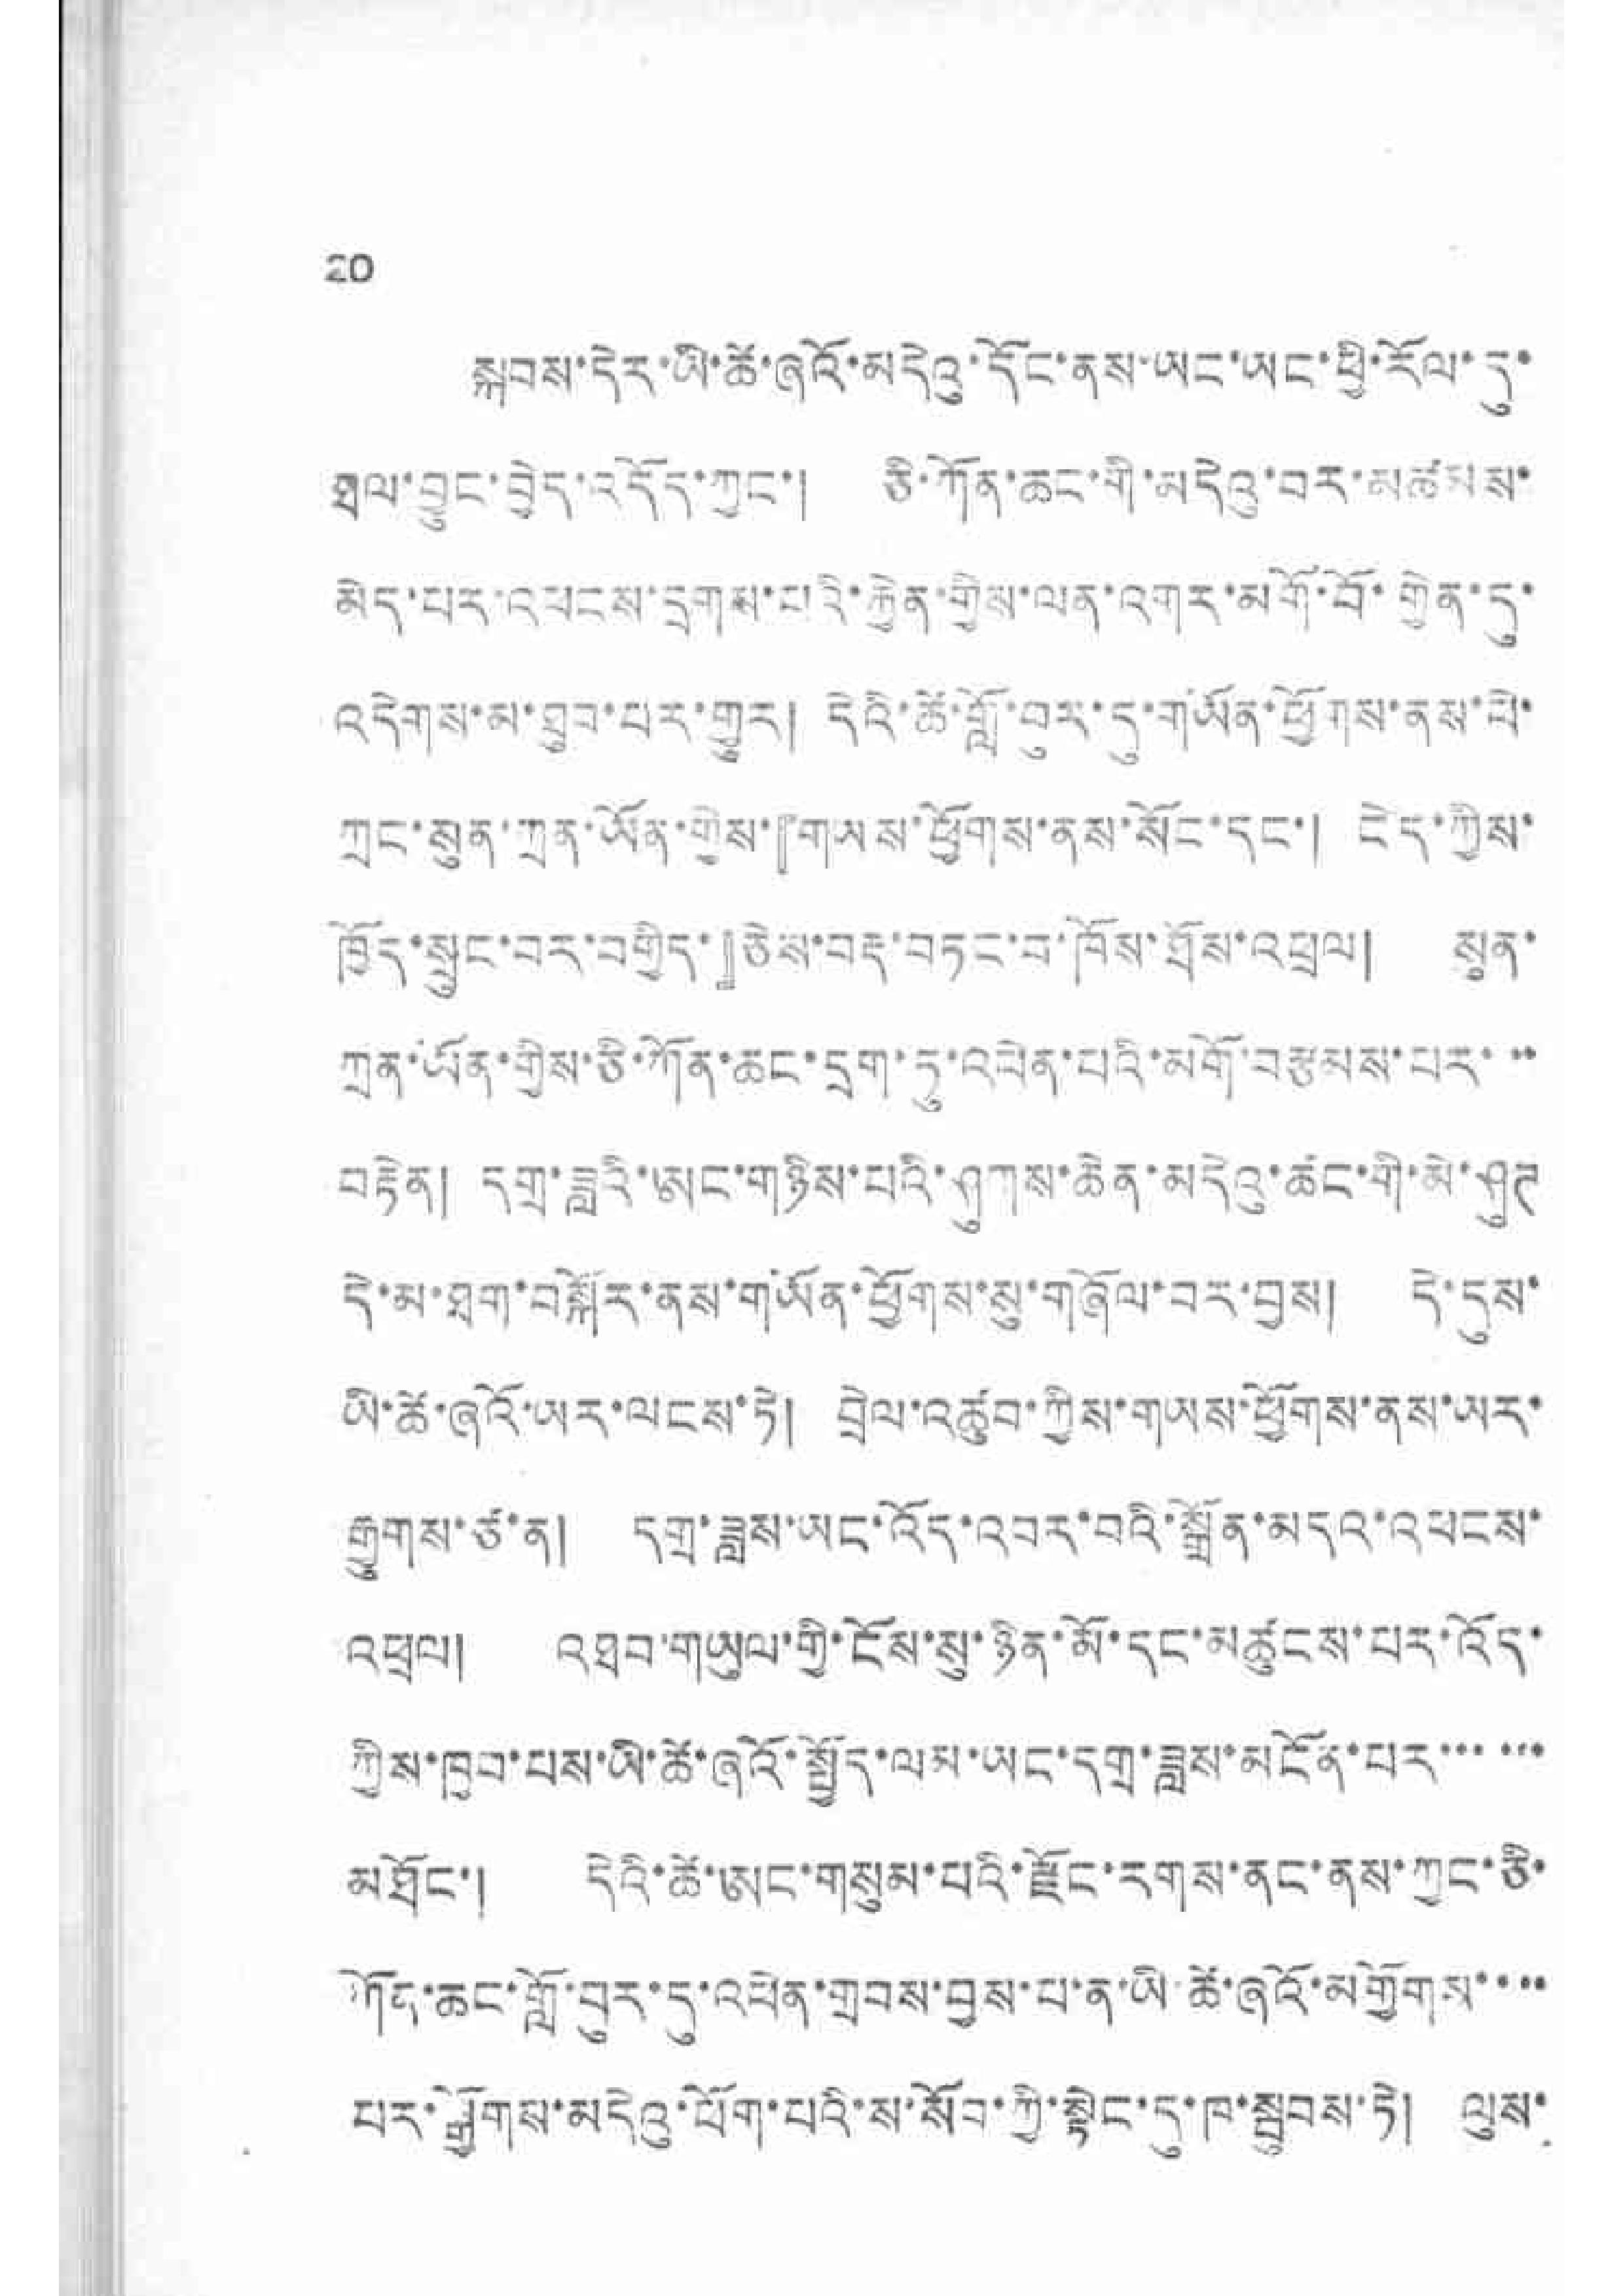20
སྐབས་དེར་ཡི་ཚོ་ཞའོ་མདེའུ་དོང་ནས་ཡང་ཡང་ཕྱི་རོལ་དུ་
ཐལ་བྱུང་བྱེད་འདོད་ཀྱང་། ཅི་ཀོན་ཆང་གི་མདེའུ་བར་མཚམས་
མེད་པར་འཕངས་དྲགས་པའི་རྐྱེན་གྱིས་ལན་འགར་མགོ་བོ་གྱེན་དུ་
འདེགས་པ་ཐུབ་པར་གྱུར། དའི་ཚེ་གློ་བུར་དུ་གཡོན་ཕྱོགས་ནས་ཕེ་
ཀྲང་སུན་ཀྲན་ཡོན་གྱིས་『གཡས་ཕྱོགས་ནས་སོང་དང་། ངེད་ཀྱིས་
ཁྱོད་སྲུང་བར་བགྱིད་』ཅེས་བརྡ་བཏང་བ་ཁོས་ཐོས་འཕྲལ། སུན་
ཀྲན་ཡོན་གྱིས་ཅི་ཀོན་ཆང་དྲག་རུ་འཕེན་པའི་མགོ་བརྩམས་པར་་་
བརྟེན། དགྲ་ཟླའི་ཨང་གཉིས་པའི་ཤུགས་ཆེན་མདེའུ་ཚང་གི་མེ་ཤུཊ
དེ་མ་ཐག་བསྐོར་ནས་གཡོན་ཕྱོགས་སུ་གཞོལ་བར་བྱས། དེ་དུས་
ཡི་ཚེ་ཞའོ་ཡར་ལངས་ཏེ། བྲེལ་འཚུབ་ཀྱིས་གཡས་ཕྱོགས་ནས་ཡར་
རྒྱུགས་ཙ་ན། དགྲ་ཟླས་ཡང་འོད་འབད་བའི་སྒྲོན་མདའ་འཕངས་
འཕྲལ། འཐབ་གཡུལ་གྱི་ངོས་སུ་ཉིན་མོ་དང་མཚུངས་པར་འོད་
ཀྱིས་ཁྱབ་པས་ཡི་ཚེ་ཞའོ་སྤྱོད་ལམ་ཡང་དགྲ་ཟླས་མངོན་པར་་་་་་
མཐོང་། དེའི་ཚེ་ཨང་གསུམ་པའི་རྫོང་རགས་ནང་ནས་ཀྱང་ཅི་
ཀོན་ཆང་གློ་བུར་དུ་འཕེན་གྲབས་བྱས་པ་ན་ཡི་ཚེ་ཞའོ་མགྱོགས་་་་
པར་སྒྱོགས་མདེའུ་ཕོག་པའི་ས་སོབ་ཀྱི་སྟེང་དུ་ཁ་སྦུབས་ཏེ། ལུས་
